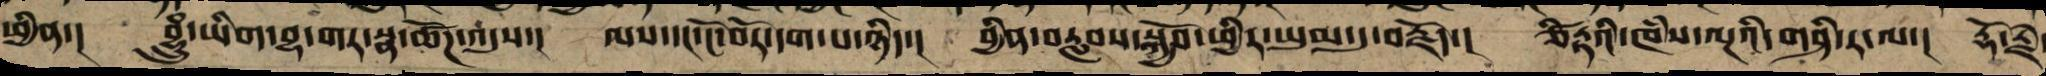ཕྱིན་། བྷྲཱུཾ་ཡིག་བྷ་གར་སྣ་ཚོཌ་འདུས་། ལས་དང་ངོ་བོར་དག་པ་ཉིད་། བྱིན་རླབས་སྐྱོབ་ཕྱིར་ཡུམ་དུ་བརྗོད་། ཙིཏྟའི་ཁཾས་ལྔའི་གཤི་ར་ལ་། རྡོ་རྗེ་
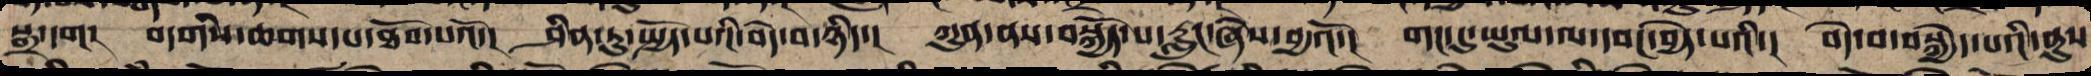སྒྲ་དག། བདག་གིས་ཆགས་པ་ཐོབ་པའོ་། ཤིན་ཏུ་སྤྱོད་པའི་བདེ་བ་ཉིད་། ཀུན་ནས་བསྐྱོད་པ་རླུང་ཞེས་བྱའོ་། གང་དུ་ཡུལ་ལ་དབང་བྱེད་པའི་། བདེ་བ་བསྐྱེད་པའི་ནུས
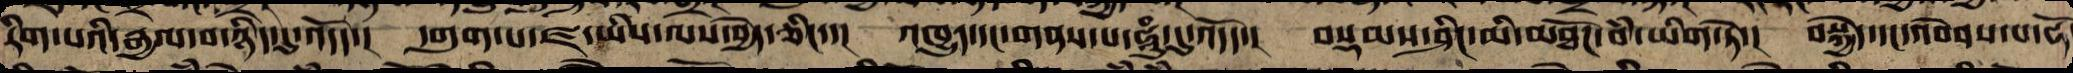རིག་པའི་རྒྱལ་བ་ཉིད་དུ་འདོད་། དགུག་པ་ཛ་ཡིས་ལས་བྱེད་ཅིང་་། འཁྱུད་དང་གནས་པ་ཧཱུཾ་དུ་འདོད་། བསྡམས་ཤིང་མི་མཐོང་བཾ་ཡིན་ཏེ་། བསྐྱེད་དང་འབེབས་པ་ཧོ
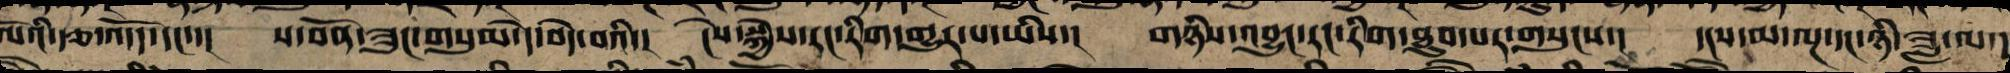ལོའི་རྩ་འདོད་དང་་།  ས་བོན་ཟུང་གསུམ་དེ་བདེ་བའི་།  ངེས་སྐྱེས་རང་རིག་གྱུར་པ་ཡིས་།  གཉིས་འབྱུང་རང་རིག་ཐུབ་པར་གསུངས་།  དྭངས་མ་ལྔ་དང་ཉི་ཟླ་ལ་།
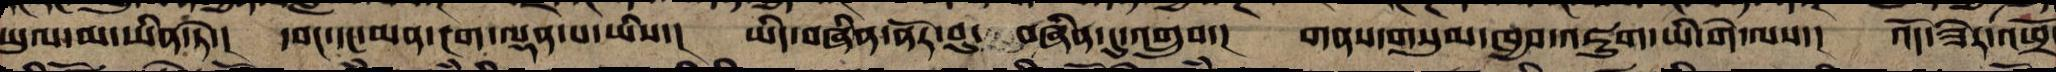ཡུལ་མ་ཡིན་ཏེ་། དབང་དང་མན་ངག་ལྡན་པ་ཡིས་། ཡིད་བཞིན་ནོར་བུ་བཞིན་དུ་འགྲུབ་། གནས་གསུམ་ཁྱབ་འཇུག་ཡི་གེ་ལས་། འོད་ཟེར་འཕྲོ་
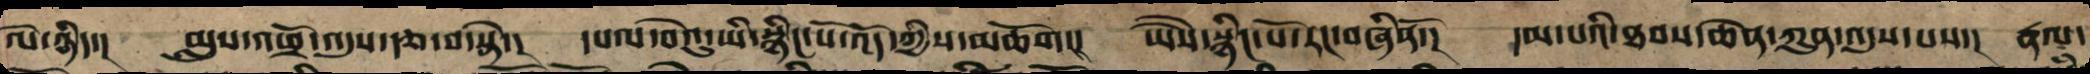ལེ་ཉིད་། མླུས་འཕྲོ་འདུས་རྩ་བ་སྟེ་། དཔལ་བེའུ་᫗ᨑ་སྙིང་པོ་འོད་ཀྱི་མཆོག། ཡཻས་སྙིང་པོའི་རང་བཞིན་ནོ་། དམ་པའི་ཐབས་ཆེན་ཀུན་འདུས་པས་། རྣལ་
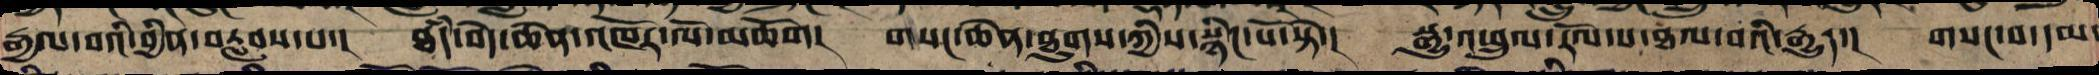རྒྱལ་བས་བྱིན་རླབས་པ་། ཐཾད་བདེ་ཆེན་འཁོར་ལོ་མཆོག། གསང་ཆེན་ཐུགས་ཀྱི་སྙིང་པོ་སྟེ་། སྒྱུ་འཕྲུལ་རོལ་པ་ཐལ་བའི་རྒྱུད་། གསང་བའི་དམ་
